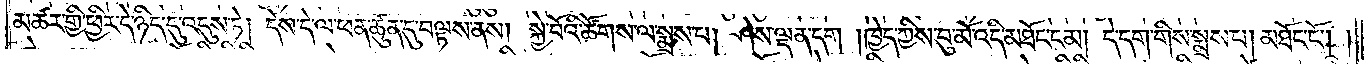མཚར་གྱི་ཕྱིར་དེ་ཉིད་དུ་འདུས་ཏེ། དེས་དེ་ལ་ཕན་ཚུན་དུ་བལྟས་ནས། སྐྱེ་བོའི་ཚོགས་ལ་སྨྲས་པ། ཤེས་ལྡན་དག །ཁྱེད་ཀྱིས་བུ་མོ་འདི་མཐོང་ངམ། དེ་དག་གིས་སྨྲས་པ། མཐོང་ངོ༌། །
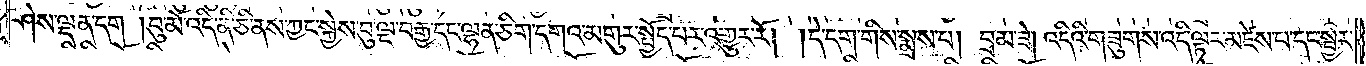ཤེས་ལྡན་དག །བུ་མོ་འདི་ནི་ཅི་ནས་ཀྱང་སྐྱེས་བུ་ལྔ་བརྒྱ་དང་ལྷན་ཅིག་དགའ་མགུར་སྤྱོད་པར་འགྱུར་རོ། །དེ་དག་གིས་སྨྲས་པ། བྲམ་ཟེ། འདིའི་གཟུགས་འདི་ལྟར་མཛེས་པ་དང་སྦྱར་
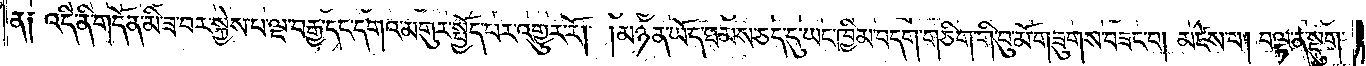ན༑ འདི་ནི་གདོན་མི་ཟ་བར་སྐྱེས་པ་ལྔ་བརྒྱ་དང་དགའ་མགུར་སྤྱོད་པར་འགྱུར་རོ། །མཉན་ཡོད་ཐམས་ཅད་དུ་ཡང་ཁྱིམ་བདག་གཅིག་གི་བུ་མོ་གཟུགས་བཟང་བ། མཛེས་པ། བལྟ་ན་སྡུག་
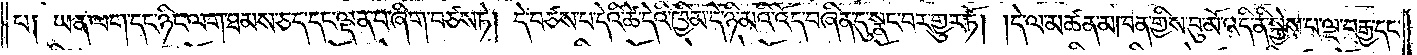པ༑ ཡན་ལག་དང་ཉིང་ལག་ཐམས་ཅད་དང་ལྡན་པ་ཞིག་བཙས་ཏེ། དེ་བཙས་པ་དེའི་ཚེ་དེའི་ཁྱིམ་དེ་ཉི་མའི་འོད་བཞིན་དུ་སྣང་བར་གྱུར་ཏོ། །དེ་ལ་མཚན་མཁན་གྱིས་བུ་མོ་འདི་ནི་སྐྱེས་པ་ལྔ་བརྒྱ་དང་
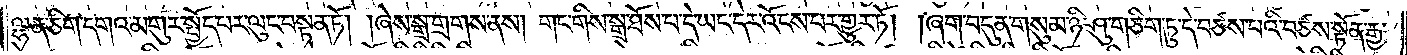ལྷན་ཅིག་དགའ་མགུར་སྤྱོད་པར་ལུང་བསྟན་ཏོ། །ཞེས་སྒྲ་གྲགས་ནས། གང་གིས་སྒྲ་ཐོས་པ་དེ་ཡང་དེར་འོངས་པར་གྱུར་ཏོ། །ཞག་བདུན་གསུམ་ཉི་ཤུ་གཅིག་ཏུ་དེ་བཙས་པའི་བཙས་སྟོན་རྒྱ་
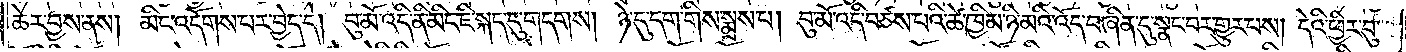ཆེར་བྱས་ནས། མིང་འདོགས་པར་བྱེད་དེ། བུ་མོ་འདི་ནི་མིང་ཇི་སྐད་དུ་གདགས། ཉེ་དུ་དག་གིས་སྨྲས་པ། བུ་མོ་འདི་བཙས་པའི་ཚེ་ཁྱིམ་ཉི་མའི་འོད་བཞིན་དུ་སྣང་བར་གྱུར་པས། དེའི་ཕྱིར་བུ་
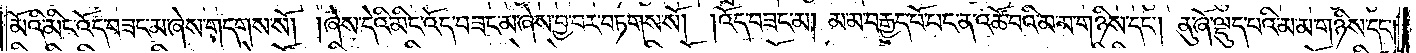མོའི་མིང་འོད་བཟང་མ་ཞེས་གདགས་སོ། །ཞེས་དེའི་མིང་འོད་བཟང་མ་ཞེས་བྱ་བར་བཏགས་སོ། །འོད་བཟང་མ། མ་མ་བརྒྱད་པོ་པང་ན་འཚོ་བའི་མ་མ་གཉིས་དང༌། ནུ་ཞོ་ལྡུད་པ་མ་མ་གཉིས་དང༌།
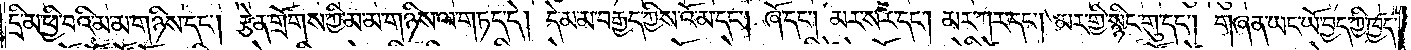དྲི་མ་ཕྱི་བའི་མ་མ་གཉིས་དང༌། རྩེན་གྲོགས་ཀྱི་མ་མ་གཉིས་ལ་གཏད་དེ། དེ་མ་མ་བརྒྱད་ཀྱི་འོ་མ་དང༌། ཞོ་དང༌། མར་སར་དང༌། མར་ཀར་དང༌། མར་གྱི་སྙིང་གུ་དང༌། གཞན་ཡང་ཡོ་བྱད་ཀྱི་ཁྱད་
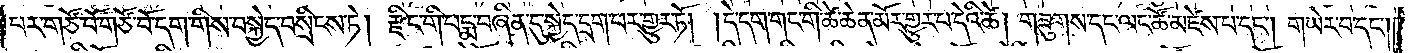པར་གཙོ་བོ་དག་གིས་བསྐྱེད་བསྲིངས་ཏེ། རྫིང་གི་པདྨ་བཞིན་དུ་སྐྱེད་དྲག་པར་གྱུར་ཏོ། །དེ་དག་གང་གི་ཚེ་ཆེན་མོར་གྱུར་པ་དེའི་ཚེ། གཟུགས་དང་ལང་ཚོ་མཛེས་པ་དང༌། གཡེར་བ་དང༌།
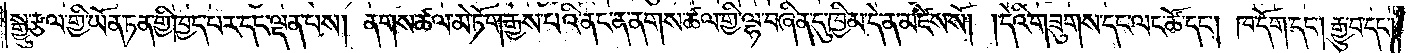སྒྱུ་རྩལ་གྱི་ཡོན་ཏན་གྱི་ཁྱད་པར་དང་ལྡན་པས། ནགས་ཚལ་མེ་ཏོག་རྒྱས་པའི་ནང་ན་ནགས་ཚལ་གྱི་ལྷ་བཞིན་དུ་ཁྱིམ་དེ་ན་མཛེས་སོ། །དེའི་གཟུགས་དང་ལང་ཚོ་དང༌། ཁ་དོག་དང༌། རྒྱུ་བ་དང༌།
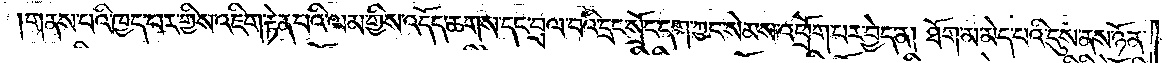གནས་པའི་ཁྱད་པར་གྱིས་འཇིག་རྟེན་པའི་ལམ་གྱིས་འདོད་ཆགས་དང་བྲལ་བའི་དྲང་སྲོང་དག་ཀྱང་སེམས་འཕྲོག་པར་བྱེད་ན། ཐོག་མ་མེད་པའི་དུས་ནས་ཉོན་
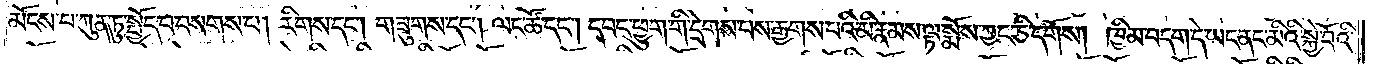མོངས་པ་ཀུན་ཏུ་སྤྱོད་པ་བསགས་པ། རིགས་དང༌། གཟུགས་དང༌། ལང་ཚོ་དང༌། དབང་ཕྱུག་གི་དྲེགས་པས་རྒྱགས་པའི་མི་རྣམས་ལྟ་སྨོས་ཀྱང་ཅི་དགོས། ཁྱིམ་བདག་དེ་ཡང་ནང་མིའི་སྐྱེ་བོའི་
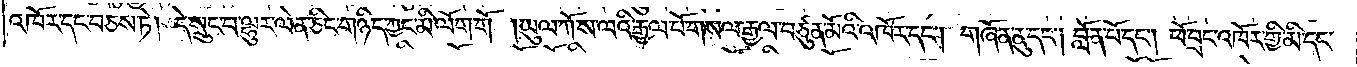འཁོར་དང་བཅས་ཏེ། དེ་སྲུང་ལྷུར་ལེན་ཅིང་གཉིད་ཀྱང་མི་ལོག་གོ །ཡུལ་ཀོ་ས་ལའི་རྒྱལ་པོ་གསལ་རྒྱལ་བཙུན་མོའི་འཁོར་དང༌། གཞོན་ནུ་དང༌། བློན་པོ་དང༌། ཕོ་བྲང་འཁོར་གྱི་མི་དང་
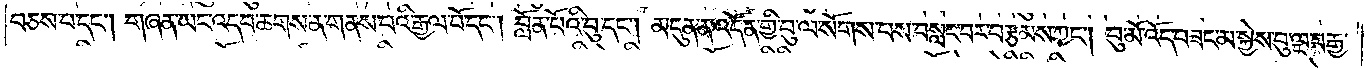བཅས་པ་དང༌། གཞན་ཡང་འདབ་ཆགས་ན་གནས་པའི་རྒྱལ་པོ་དང༌། བློན་པོའི་བུ་དང༌། མདུན་ན་འདོན་གྱི་བུ་ལ་སོགས་པས་བསླང་བར་བརྩམས་ཀྱང༌། བུ་མོ་འོད་བཟང་མ་སྐྱེས་བུ་ལྔ་བརྒྱ་
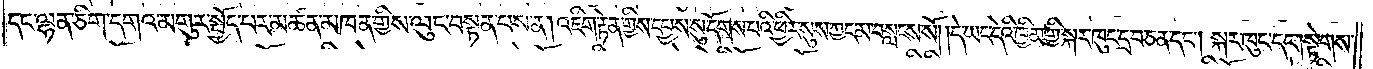དང་ལྷན་ཅིག་དགའ་མགུར་སྤྱོད་པར་མཚན་མཁན་གྱིས་ལུང་བསྟན་པས་ན། འཇིག་རྟེན་གྱིས་དཔྱས་སུ་དོགས་པའི་ཕྱིར་སུས་ཀྱང་མ་བསླངས་སོ། །དེ་ཡང་དེའི་ཁྱིམ་གྱི་སྐར་ཁུང་དྲ་བ་ཅན་དང༌། སྐར་ཁུང་དང༌། སྟེགས་
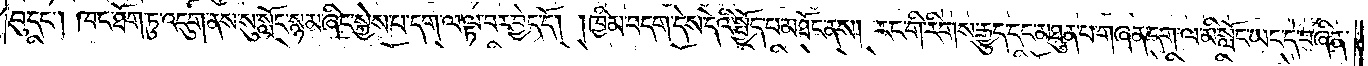བུ་དང༌། ཁང་ཐོག་ཏུ་འདུག་ནས་སུ་སློང་སྙམ་ཞིང་སྐྱེས་པ་དག་ལ་ལྟ་བར་བྱེད་དོ། །ཁྱིམ་བདག་དེས་དེའི་སྤྱོད་པ་མཐོང་ནས། རང་གི་རིགས་རྒྱུད་དང་མཐུན་པ་གཞན་དག་ལ་མི་སློང་ཡང་དེ་བཞིན་
